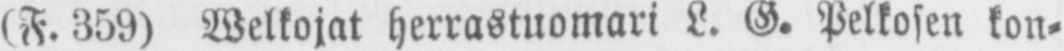(F. 359) Welkojat herrastuomari L. G. Pelkosen kon-
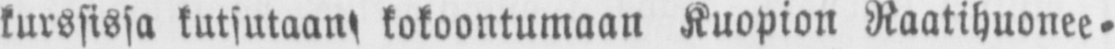kurssissa kutsutaan kokoontumaan Kuopion Raatihuonee-
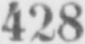428
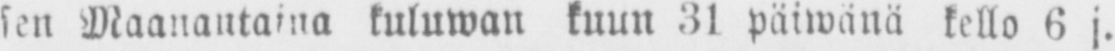sen Maanantaina kuluwan kuun 31 päiwänä kello 6 j.
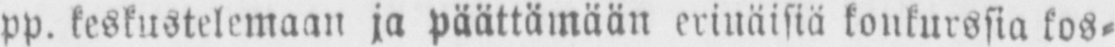pp. keskustelemaan ja päättämään erinäisiä konkurssia kos-
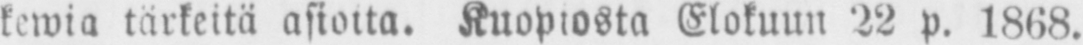kewia tärkeitä asioita. Kuopiosta Elokuun 22 p. 1868.
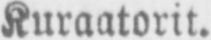Kuraatorit.
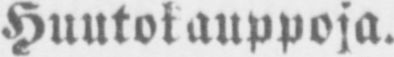Huutok auppoja.
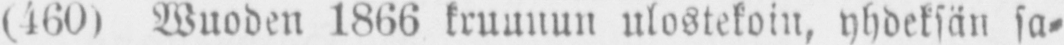(460) Wuoden 1866 kruunun ulostekoin, yhdeksän sa-
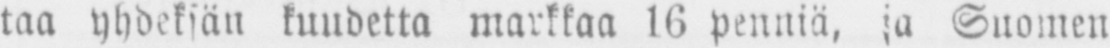taa yhdeksän kuudetta markkaa 16 penniä, ja Suomen
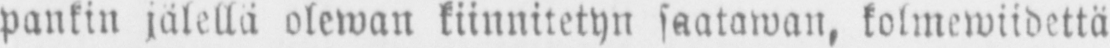pankin jälellä olewan kiinnitetyn säätäwän, kolmewiidettä
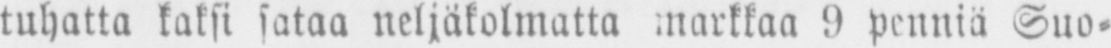tuhatta kaksi sataa neljäkolmatta markkaa 9 penniä Suo-
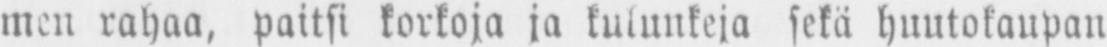men rahaa, paitsi korkoja ja kulunkeja sekä huutokaupan
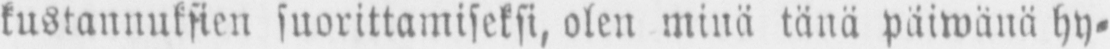kustannuksien suorittamiseksi, olen minä tänä päiwänä hy-
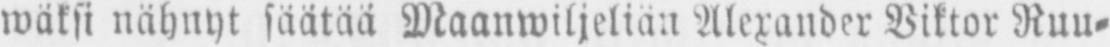wäksi nähnyt säätää Maanwiljeliän Alexander Viktor Ruu-
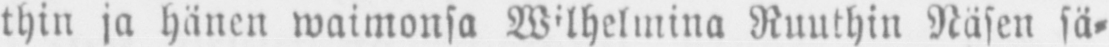thin ja hänen waimonsa Wilhelmina Ruuthin Näsen sä-
